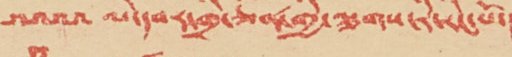ལི་དབར་གྲི་ཅན་གྱི་ལྕགས་རི་རིང་པོ་།
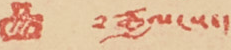༸རྒྱལ་ས་།
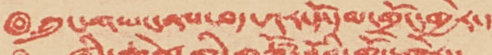ཀྲུང་གཡང་ནས་ཐད་ཀར་དོ་དམ་གྲོང་ཁྱེར་།
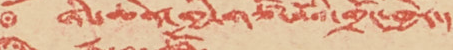ཞིང་ཆེན་གྱི་གཙོ་བོའི་གྲོང་ཁྱེར་།
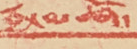རྒྱ་མཚོ་
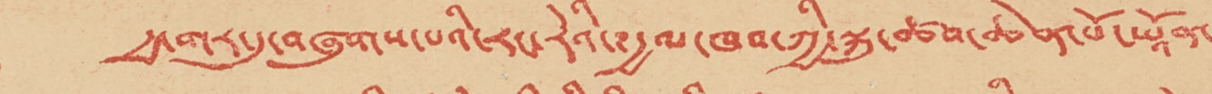• རྒྱ་གར་དུ་བཞུགས་པའི་རང་རེའི་༸རྒྱལ་ཁབ་ཀྱི་སྐུ་ཚབ་ཆེན་པོ་ཡཱོན་
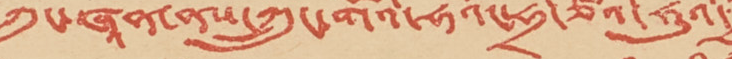ཀྲུང་ཞཱན་ནས་ཀྲུང་གོའི་ཧོའོང་ཧྲི་ཙིའི་ཧུའི་
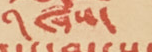ཞེས་
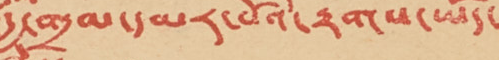རྒྱ་གྲམ་དམར་པོའི་རྟགས་ཡོད་
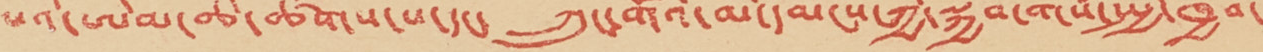པའི་ཨེམ་ཆི་ཚོགས་པ་དང་ ཀྲུང་གོའི་མི་དམངས་ཀྱི་སྐྱོབ་གསོ་སྤྱི་ཁྱབ་
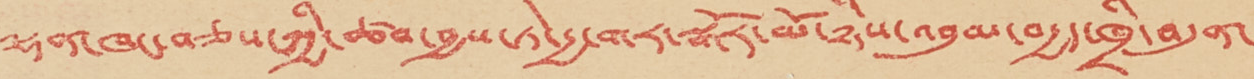ལྷན་ཁང་བཅས་ཀྱི་ཚབ་བྱས་ཏེ་རྒྱ་གར་སྒོར་མོ་ཉིས་འབུམ་བརྒྱད་ཁྲི་བདུན་
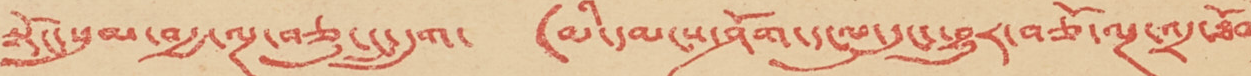སྟོང་སུམ་བརྒྱ་ལྔ་བཅུ་ང་དྲུག་ (མི་དམངས་ཤོག་དངུལ་དུང་ཕྱུར་བཅོ་ལྔ་འདྲ་ཐོབ་)
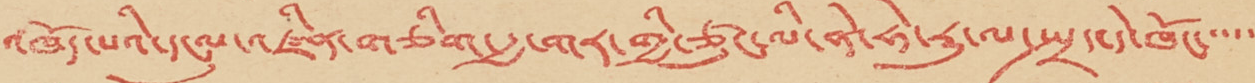འཁོད་པའི་དངུལ་འཛིན་གཅིག་རྒྱ་གར་གྱི་ཙུང་ལི་ནེ་ཧེ་རུ་ལ་སྤྲད་དེ་ཁོང་་་་་
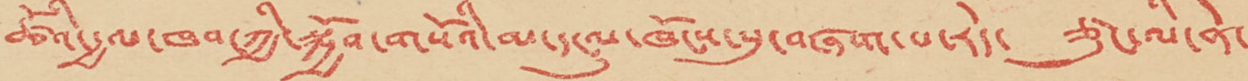ཚོའི་རྒྱལ་ཁབ་ཀྱི་སྐྱོབ་གསོའི་མ་དངུལ་ཁོངས་སུ་བཞག་པ་རེད་ ཙུང་ལི་ནེ་
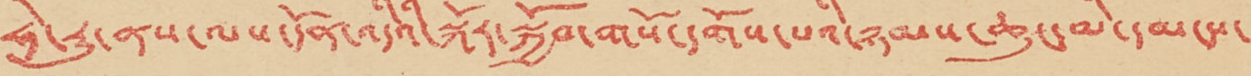ཧེ་རུ་ནས་ལས་དོན་འདིའི་སྐོར་སྐྱོབ་གསོ་དགོས་པའི་ཉམས་ཆུང་མི་དམངས་
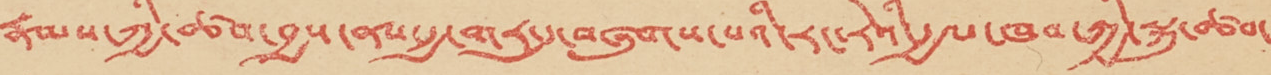རྣམས་ཀྱི་ཚབ་བྱས་ནས་རྒྱ་གར་དུ་བཞུགས་པའི་རང་རེའི་རྒྱལ་ཁབ་ཀྱི་སྐུ་ཚབ་
